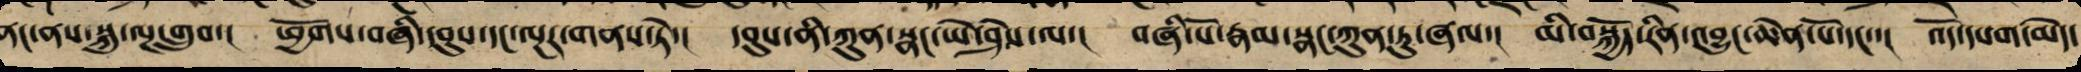ནང་ནས་སྐུ་ལྔ་གྲུབ་། ཕྱོགས་བཞི་དབུས་དང་ལྔར་གནས་ཏེ་། དབུས་ནི་ཀུན་སྣང་ཡེ་ཤེས་ལ་། བཞི་པོ་རྣམ་སྣང་ཀུན་ཏུ་ཞལ་། མི་བསྐྱོད་རིན་འབྱུང་ཆེན་པོ་དང་་། འོད་དཔག་མེད་
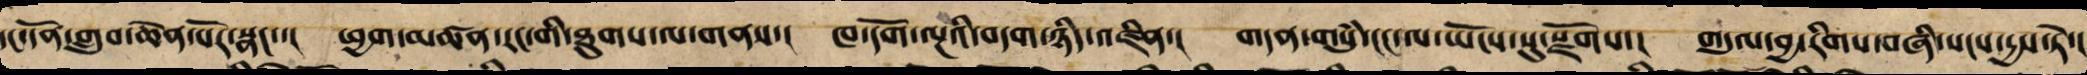དང་དོན་གྲུབ་ཆེན་པོར་སྣང་་། ཕྱག་མཚན་རང་གི་ཐུགས་ལ་གནས་། ཁ་དོག་ལྔའི་བདག་ཉིད་འཛིན་། གདན་གསུཾ་ངང་ལ་ཡོངས་སུ་རྫོགས་། གདུལ་བྱ་རིགས་བཞི་སངས་དྱས་ཏེ་།
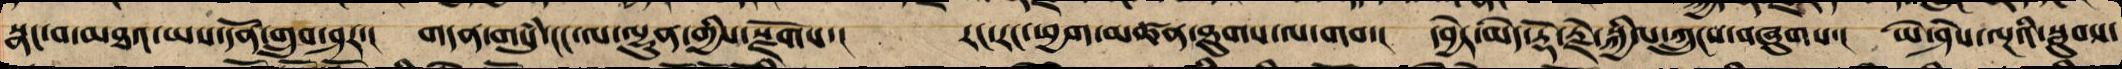སྣང་བ་མཐའ་ཡས་དོན་གྲུབ་ཤར་། གདན་གསུཾ་ངང་ལ་ལྷུན་གྱིས་སྫོགས་། རང་རང་ཕྱག་མཚན་ཐུགས་ལ་གབ་། དབྱེར་མེད་རྡོ་རྗེ་སྐྱིལ་ཀྲུངས་བཞུགས་། ཡེ་ཤེས་ལྔའི་སྦུབས་
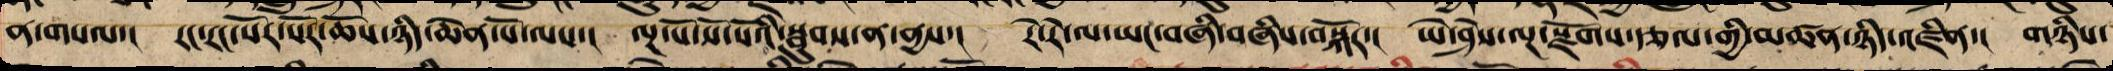ན་གསལ་། རང་རང་སོར་སོར་ཆོས་ཉིད་ཆེན་པོ་ལས་། ལྔ་པོ་སོ་སོའི་སྦུབས་ན་ནྱས་། རེ་རེ་ལ་ཡང་བཞི་བཞིས་བསྐོར་། ཡེ་ཤེས་ལྔ་སྫོགས་རྩལ་གྱི་མཚན་ཉིད་འཛིན་། གཉིས་
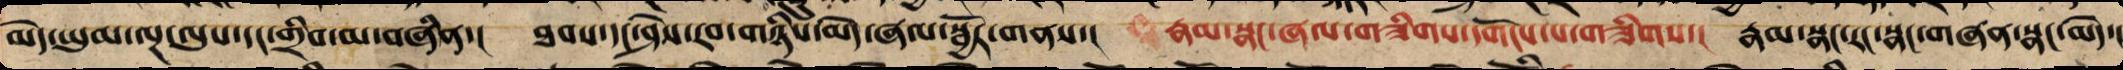མེད་ཡུམ་ལྔ་ལུས་དང་གྲིབ་མ་བཞིན་། ཐབས་དང་ཤེས་རབ་གཉིས་མེད་ཞལ་སྦྱོར་གནས་། རྣམ་སྣང་ཞལ་གཟིགས་དགོངས་པ་གཟིགས་། རྣམ་སྣང་རང་གཞན་སྣང་མེད་།
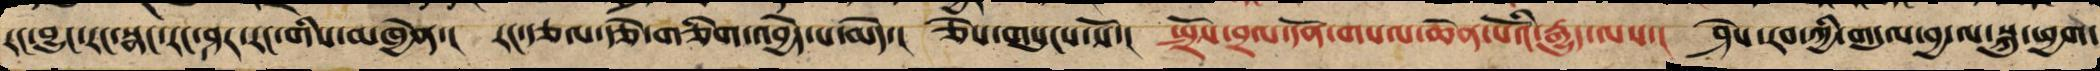རང་བྱུང་རང་སྣང་རང་ཤར་རང་གིས་མཁྱེན་། རང་རྩལ་རྩེ་གཅིག་འབྱེད་པ་མེད་། ཅེས་གསུངས་སོ་། སྤྲོས་བྲལ་དོན་གསལ་ཆེན་པོའི་རྒྱུད་ལས་། ཤེས་རབ་ཀྱི་གདུལ་བྱ་ལ་སྐུ་ཕྱག་
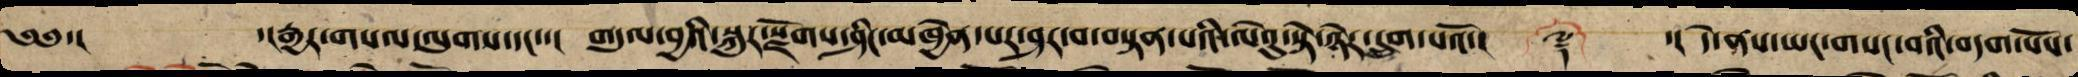༄༅་། ་།རྒྱར་གསལ་ལུགས་དང་་། གདུལ་བྱའི་སྐུར་སྫོགས་ཤིང་མཁྱེན་པར་ཤར་བ་བསྟན་པའི་ལེའུ་སྟེ་ཉེར་དྲུག་པའོ་།། ༈ ་། དེ་ནས་ཡང་གསང་བའི་བདག་པོས་
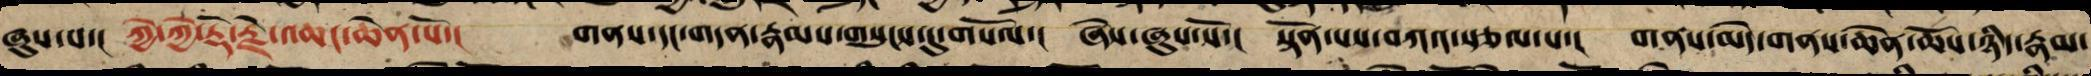ཞུས་པ་། ཀྱེ་ཀྱེ་རྡོ་རྗེ་འཆང་ཆེན་པོ་། གནས་དང་གདན་རྣམས་གསུངས་དུ་གསོལ་། ཞེས་ཞུས་སོ་། སྟོན་པས་བཀའ་སྩལ་པ་། གནས་མེད་གནས་ཆེན་ཆོས་ཉིད་རྣམ་
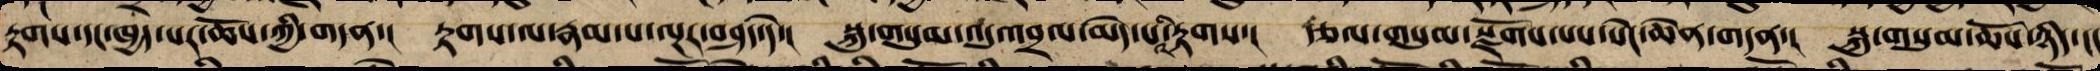རྟགས་དང་ཁྱད་པར་ཆོས་ཀྱི་གདན་། རྟགས་ལ་རྣམ་པ་ལྔར་བཤད་དེ་། སྐུ་གསུམ་འདུ་འབྲལ་མེད་པའི་རྟགས་། རྩལ་གསུམ་སྫོགས་པ་སེང་ཆེན་གདན་། སྐུ་གསུམ་ཆོས་ཉིད་ངང
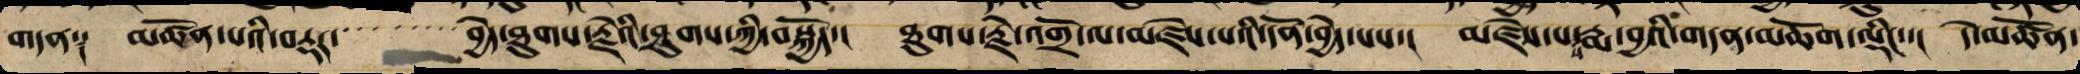གདན༑ མཚོན་པའི་བརྡར་་་་་་་་་བྱེད་ཐུགས་རྗེའི་ཤུགས་ཀྱི་བསྐྱོད། ཐུགས་རྗེ་འགྲོ་ལ་མཛེས་པའི་དོན་བྱེད་པས་། མཛེས་པ་རྨ་བྱའི་གདན་མཆོག་ལྡིང་་། དེ་མཚོན་
